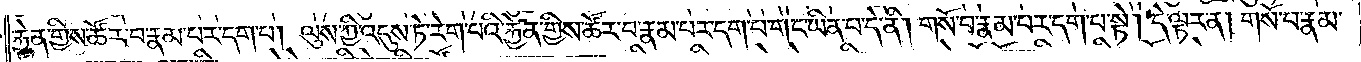རྐྱེན་གྱིས་ཚོར་བ་རྣམ་པར་དག་པ། ལུས་ཀྱི་འདུས་ཏེ་རེག་པའི་རྐྱེན་གྱིས་ཚོར་བ་རྣམ་པར་དག་པ་གང་ཡིན་པ་དེ་ནི། གསོ་བ་རྣམ་པར་དག་པ་སྟེ། དེ་ལྟར་ན། གསོ་བ་རྣམ་
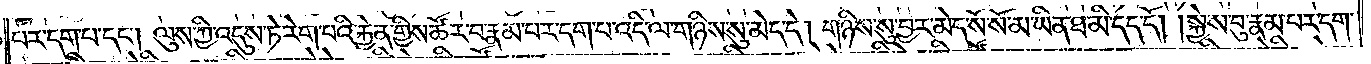པར་དག་པ་དང༌། ལུས་ཀྱི་འདུས་ཏེ་རེག་པའི་རྐྱེན་གྱིས་ཚོར་བ་རྣམ་པར་དག་པ་འདི་ལ་གཉིས་སུ་མེད་དེ། གཉིས་སུ་བྱར་མེད་སོ་སོ་མ་ཡིན་ཐ་མི་དད་དོ། །སྐྱེས་བུ་རྣམ་པར་དག་
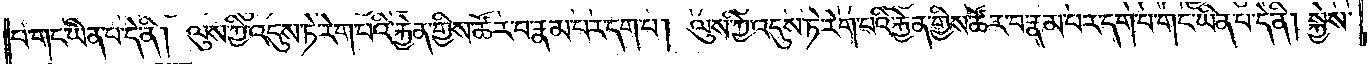པ་གང་ཡིན་པ་དེ་ནི། ལུས་ཀྱི་འདུས་ཏེ་རེག་པའི་རྐྱེན་གྱིས་ཚོར་བ་རྣམ་པར་དག་པ། ལུས་ཀྱི་འདུས་ཏེ་རེག་པའི་རྐྱེན་གྱིས་ཚོར་བ་རྣམ་པར་དག་པ་གང་ཡིན་པ་དེ་ནི། སྐྱེས་
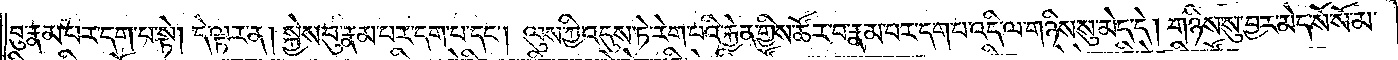བུ་རྣམ་པར་དག་པ་སྟེ། དེ་ལྟར་ན། སྐྱེས་བུ་རྣམ་པར་དག་པ་དང༌། ལུས་ཀྱི་འདུས་ཏེ་རེག་པའི་རྐྱེན་གྱིས་ཚོར་བ་རྣམ་པར་དག་པ་འདི་ལ་གཉིས་སུ་མེད་དེ། གཉིས་སུ་བྱར་མེད་སོ་སོ་མ་
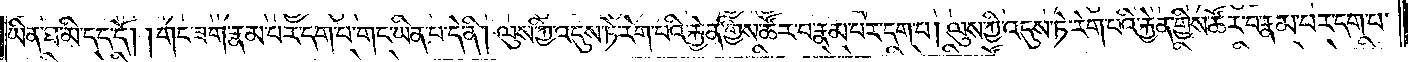ཡིན་ཐ་མི་དད་དོ། །གང་ཟག་རྣམ་པར་དག་པ་གང་ཡིན་པ་དེ་ནི། ལུས་ཀྱི་འདུས་ཏེ་རེག་པའི་རྐྱེན་གྱིས་ཚོར་བ་རྣམ་པར་དག་པ། ལུས་ཀྱི་འདུས་ཏེ་རེག་པའི་རྐྱེན་གྱིས་ཚོར་བ་རྣམ་པར་དག་པ་
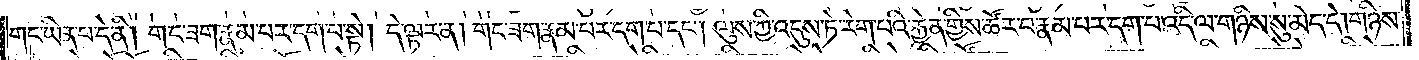གང་ཡིན་པ་དེ་ནི། གང་ཟག་རྣམ་པར་དག་པ་སྟེ། དེ་ལྟར་ན། གང་ཟག་རྣམ་པར་དག་པ་དང༌། ལུས་ཀྱི་འདུས་ཏེ་རེག་པའི་རྐྱེན་གྱིས་ཚོར་བ་རྣམ་པར་དག་པ་འདི་ལ་གཉིས་སུ་མེད་དེ། གཉིས་
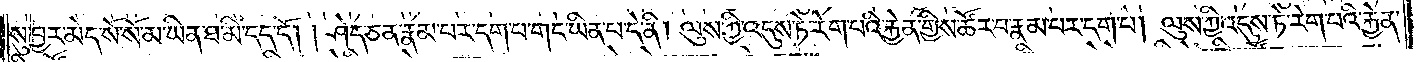སུ་བྱར་མེད་སོ་སོ་མ་ཡིན་ཐ་མི་དད་དོ། །ཤེད་ཅན་རྣམ་པར་དག་པ་གང་ཡིན་པ་དེ་ནི། ལུས་ཀྱི་འདུས་ཏེ་རེག་པའི་རྐྱེན་གྱིས་ཚོར་བ་རྣམ་པར་དག་པ། ལུས་ཀྱི་འདུས་ཏེ་རེག་པའི་རྐྱེན་
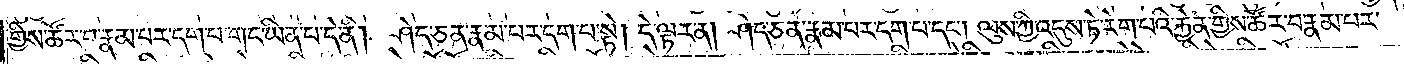གྱིས་ཚོར་བ་རྣམ་པར་དག་པ་གང་ཡིན་པ་དེ་ནི། ཤེད་ཅན་རྣམ་པར་དག་པ་སྟེ། དེ་ལྟར་ན། ཤེད་ཅན་རྣམ་པར་དག་པ་དང༌། ལུས་ཀྱི་འདུས་ཏེ་རེག་པའི་རྐྱེན་གྱིས་ཚོར་བ་རྣམ་པར་
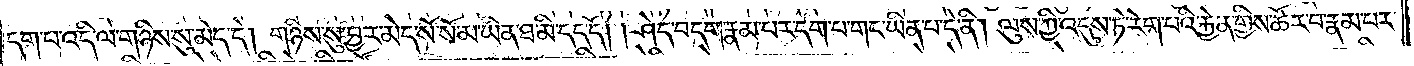དག་པ་འདི་ལ་གཉིས་སུ་མེད་དེ། གཉིས་སུ་བྱར་མེད་སོ་སོ་མ་ཡིན་ཐ་མི་དད་དོ། །ཤེད་བདག་རྣམ་པར་དག་པ་གང་ཡིན་པ་དེ་ནི། ལུས་ཀྱི་འདུས་ཏེ་རེག་པའི་རྐྱེན་གྱིས་ཚོར་བ་རྣམ་པར་
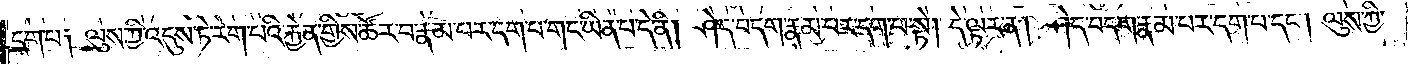དག་པ༑ ལུས་ཀྱི་འདུས་ཏེ་རེག་པའི་རྐྱེན་གྱིས་ཚོར་བ་རྣམ་པར་དག་པ་གང་ཡིན་པ་དེ་ནི། ཤེད་བདག་རྣམ་པར་དག་པ་སྟེ། དེ་ལྟར་ན། ཤེད་བདག་རྣམ་པར་དག་པ་དང༌། ལུས་ཀྱི་
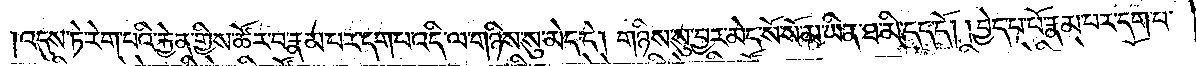འདུས་ཏེ་རེག་པའི་རྐྱེན་གྱིས་ཚོར་བ་རྣམ་པར་དག་པ་འདི་ལ་གཉིས་སུ་མེད་དེ། གཉིས་སུ་བྱར་མེད་སོ་སོ་མ་ཡིན་ཐ་མི་དད་དོ། །བྱེད་པ་པོ་རྣམ་པར་དག་པ་
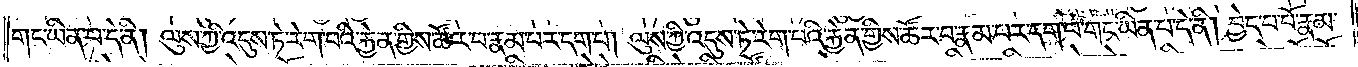གང་ཡིན་པ་དེ་ནི། ལུས་ཀྱི་འདུས་ཏེ་རེག་པའི་རྐྱེན་གྱིས་ཚོར་བ་རྣམ་པར་དག་པ། ལུས་ཀྱི་འདུས་ཏེ་རེག་པའི་རྐྱེན་གྱིས་ཚོར་བ་རྣམ་པར་དག་པ་གང་ཡིན་པ་དེ་ནི། བྱེད་པ་པོ་རྣམ་
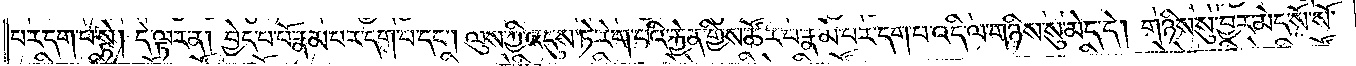པར་དག་པ་སྟེ། དེ་ལྟར་ན། བྱེད་པ་པོ་རྣམ་པར་དག་པ་དང༌། ལུས་ཀྱི་འདུས་ཏེ་རེག་པའི་རྐྱེན་གྱིས་ཚོར་བ་རྣམ་པར་དག་པ་འདི་ལ་གཉིས་སུ་མེད་དེ། གཉིས་སུ་བྱར་མེད་སོ་སོ་
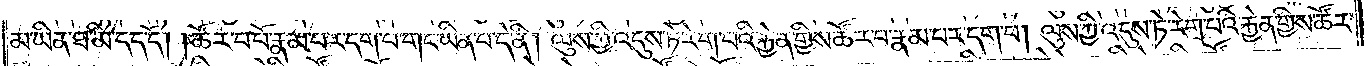མ་ཡིན་ཐ་མི་དད་དོ། །ཚོར་བ་པོ་རྣམ་པར་དག་པ་གང་ཡིན་པ་དེ་ནི། ལུས་ཀྱི་འདུས་ཏེ་རེག་པའི་རྐྱེན་གྱིས་ཚོར་བ་རྣམ་པར་དག་པ། ལུས་ཀྱི་འདུས་ཏེ་རེག་པའི་རྐྱེན་གྱིས་ཚོར་
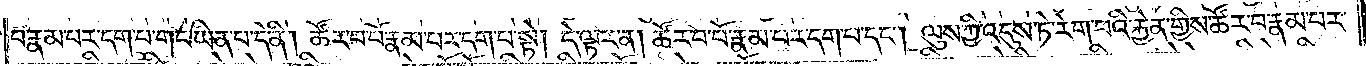བ་རྣམ་པར་དག་པ་གང་ཡིན་པ་དེ་ནི། ཚོར་བ་པོ་རྣམ་པར་དག་པ་སྟེ། དེ་ལྟར་ན། ཚོར་བ་པོ་རྣམ་པར་དག་པ་དང༌། ལུས་ཀྱི་འདུས་ཏེ་རེག་པའི་རྐྱེན་གྱིས་ཚོར་བ་རྣམ་པར་
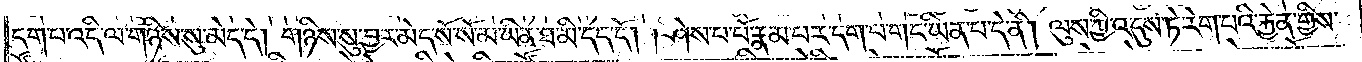དག་པ་འདི་ལ་གཉིས་སུ་མེད་དེ། གཉིས་སུ་བྱར་མེད་སོ་སོ་མ་ཡིན་ཐ་མི་དད་དོ། །ཤེས་པ་པོ་རྣམ་པར་དག་པ་གང་ཡིན་པ་དེ་ནི། ལུས་ཀྱི་འདུས་ཏེ་རེག་པའི་རྐྱེན་གྱིས་
